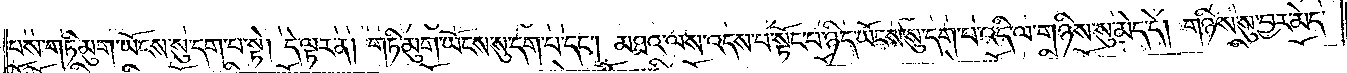པས་གཏི་མུག་ཡོངས་སུ་དག་པ་སྟེ། དེ་ལྟར་ན། གཏི་མུག་ཡོངས་སུ་དག་པ་དང་མཐའ་ལས་འདས་པ་སྟོང་པ་ཉིད་ཡོངས་སུ་དག་པ་འདི་ལ་གཉིས་སུ་མེད་དེ། གཉིས་སུ་བྱར་མེད་
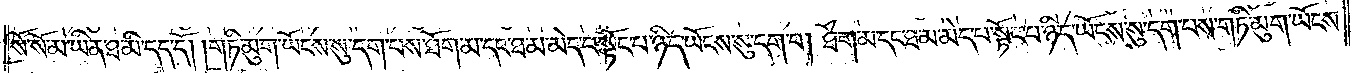སོ་སོ་མ་ཡིན་ཐ་མི་དད་དོ། །གཏི་མུག་ཡོངས་སུ་དག་པས་ཐོག་མ་དང་ཐ་མ་མེད་པ་སྟོང་པ་ཉིད་ཡོངས་སུ་དག་པ། ཐོག་མ་དང་ཐ་མ་མེད་པ་སྟོང་པ་ཉིད་ཡོངས་སུ་དག་པས་གཏི་མུག་ཡོངས་
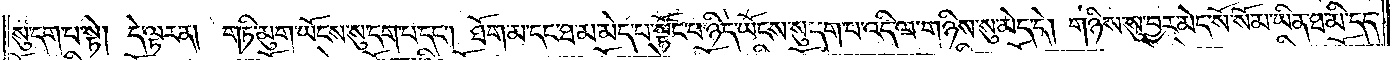སུ་དག་པ་སྟེ། དེ་ལྟར་ན། གཏི་མུག་ཡོངས་སུ་དག་པ་དང༌། ཐོག་མ་དང་ཐ་མ་མེད་པ་སྟོང་པ་ཉིད་ཡོངས་སུ་དག་པ་འདི་ལ་གཉིས་སུ་མེད་དེ། གཉིས་སུ་བྱར་མེད་སོ་སོ་མ་ཡིན་ཐ་མི་དད་
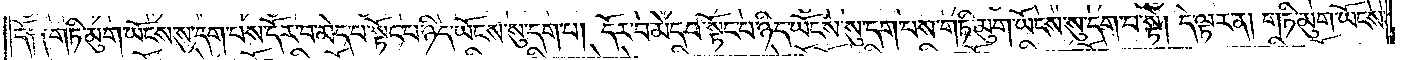དོ༑ ༑གཏི་མུག་ཡོངས་སུ་དག་པས་དོར་བ་མེད་པ་སྟོང་པ་ཉིད་ཡོངས་སུ་དག་པ། དོར་བ་མེད་པ་སྟོང་པ་ཉིད་ཡོངས་སུ་དག་པས་གཏི་མུག་ཡོངས་སུ་དག་པ་སྟེ། དེ་ལྟར་ན། གཏི་མུག་ཡོངས་
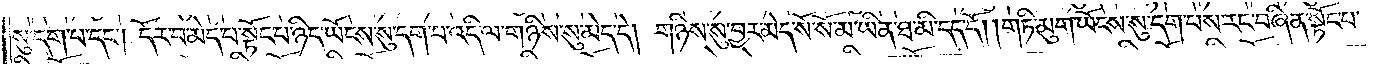སུ་དག་པ་དང༌། དོར་བ་མེད་པ་སྟོང་པ་ཉིད་ཡོངས་སུ་དག་པས་འདི་ལ་གཉིས་སུ་མེད་དེ། གཉིས་སུ་བྱར་མེད་སོ་སོ་མ་ཡིན་ཐ་མི་དད་དོ། །གཏི་མུག་ཡོངས་སུ་དག་པས་རང་བཞིན་སྟོང་པ་
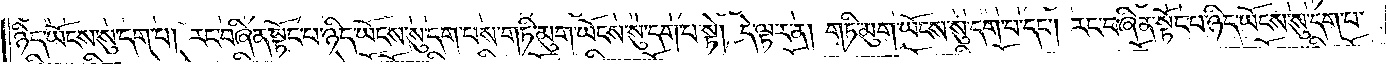ཉིད་ཡོངས་སུ་དག་པ། རང་བཞིན་སྟོང་པ་ཉིད་ཡོངས་སུ་དག་པས་གཏི་མུག་ཡོངས་སུ་དག་པ་སྟེ། དེ་ལྟར་ན། གཏི་མུག་ཡོངས་སུ་དག་པ་དང༌། རང་བཞིན་སྟོང་པ་ཉིད་ཡོངས་སུ་དག་པ་
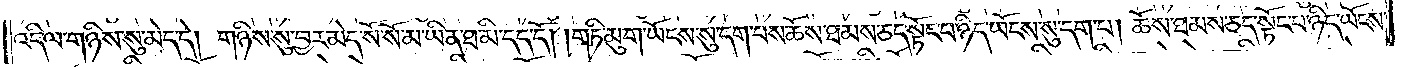འདི་ལ་གཉིས་སུ་མེད་དེ། གཉིས་སུ་བྱར་མེད་སོ་སོ་མ་ཡིན་ཐ་མི་དད་དོ། །གཏི་མུག་ཡོངས་སུ་དག་པས་ཆོས་ཐམས་ཅད་སྟོང་པ་ཉིད་ཡོངས་སུ་དག་པ། ཆོས་ཐམས་ཅད་སྟོང་པ་ཉིད་ཡོངས་
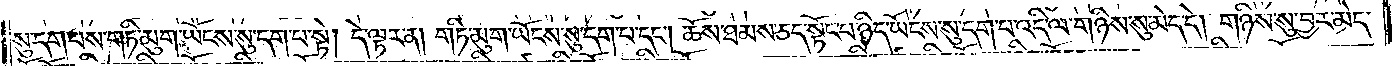སུ་དག་པས་གཏི་མུག་ཡོངས་སུ་དག་པ་སྟེ། དེ་ལྟར་ན། གཏི་མུག་ཡོངས་སུ་དག་པ་དང༌། ཆོས་ཐམས་ཅད་སྟོང་པ་ཉིད་ཡོངས་སུ་དག་པ་འདི་ལ་གཉིས་སུ་མེད་དེ། གཉིས་སུ་བྱར་མེད་
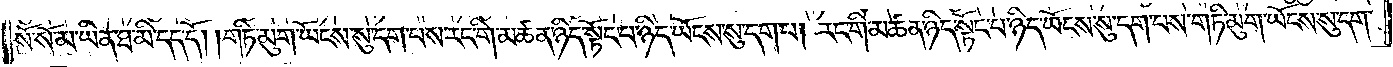སོ་སོ་མ་ཡིན་ཐ་མི་དད་དོ། །གཏི་མུག་ཡོངས་སུ་དག་པས་རང་གི་མཚན་ཉིད་སྟོང་པ་ཉིད་ཡོངས་སུ་དག་པ། རང་གི་མཚན་ཉིད་སྟོང་པ་ཉིད་ཡོངས་སུ་དག་པས་གཏི་མུག་ཡོངས་སུ་དག་
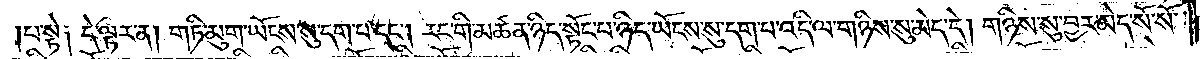པ་སྟེ༑ དེ་ལྟར་ན། གཏི་མུག་ཡོངས་སུ་དག་པ་དང༌། རང་གི་མཚན་ཉིད་སྟོང་པ་ཉིད་ཡོངས་སུ་དག་པ་འདི་ལ་གཉིས་སུ་མེད་དེ། གཉིས་སུ་བྱར་མེད་སོ་སོ་
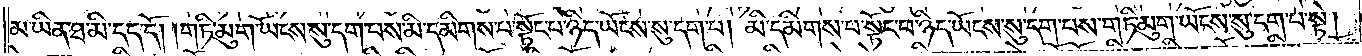མ་ཡིན་ཐ་མི་དད་དོ། །གཏི་མུག་ཡོངས་སུ་དག་པས་མི་དམིགས་པ་སྟོང་པ་ཉིད་ཡོངས་སུ་དག་པ། མི་དམིགས་པ་སྟོང་པ་ཉིད་ཡོངས་སུ་དག་པས་གཏི་མུག་ཡོངས་སུ་དག་པ་སྟེ།
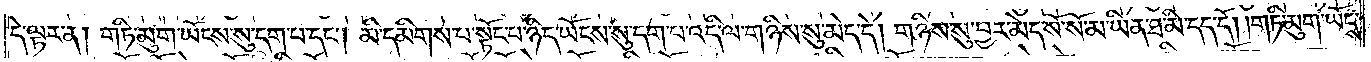དེ་ལྟར་ན། གཏི་མུག་ཡོངས་སུ་དག་པ་དང༌། མི་དམིགས་པ་སྟོང་པ་ཉིད་ཡོངས་སུ་དག་པ་འདི་ལ་གཉིས་སུ་མེད་དེ། གཉིས་སུ་བྱར་མེད་སོ་སོ་མ་ཡིན་ཐ་མི་དད་དོ། །གཏི་མུག་ཡོངས་
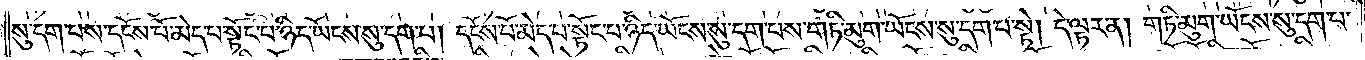སུ་དག་པས་དངོས་པོ་མེད་པ་སྟོང་པ་ཉིད་ཡོངས་སུ་དག་པ། དངོས་པོ་མེད་པ་སྟོང་པ་ཉིད་ཡོངས་སུ་དག་པས་གཏི་མུག་ཡོངས་སུ་དག་པ་སྟེ། དེ་ལྟར་ན། གཏི་མུག་ཡོངས་སུ་དག་པ་
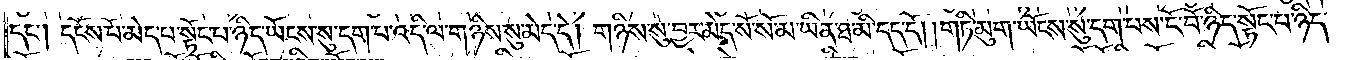དང༌། དངོས་པོ་མེད་པ་སྟོང་པ་ཉིད་ཡོངས་སུ་དག་པ་འདི་ལ་གཉིས་སུ་མེད་དེ། གཉིས་སུ་བྱར་མེད་སོ་སོ་མ་ཡིན་ཐ་མི་དད་དོ། །གཏི་མུག་ཡོངས་སུ་དག་པས་ངོ་བོ་ཉིད་སྟོང་པ་ཉིད་
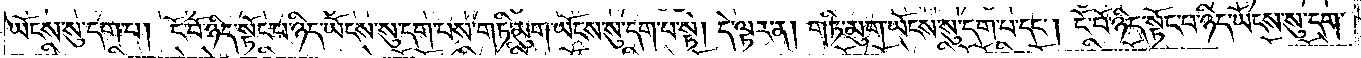ཡོངས་སུ་དག་པ། ངོ་བོ་ཉིད་སྟོང་པ་ཉིད་ཡོངས་སུ་དག་པས་གཏི་མུག་ཡོངས་སུ་དག་པ་སྟེ། དེ་ལྟར་ན། གཏི་མུག་ཡོངས་སུ་དག་པ་དང༌། ངོ་བོ་ཉིད་སྟོང་པ་ཉིད་ཡོངས་སུ་དག་
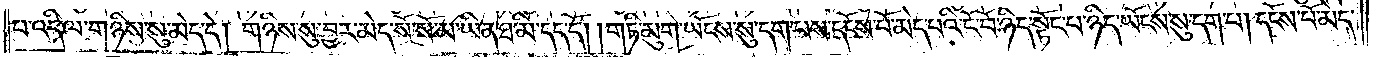པ་འདི་ལ་གཉིས་སུ་མེད་དེ། གཉིས་སུ་བྱར་མེད་སོ་སོ་མ་ཡིན་ཐ་མི་དད་དོ། །གཏི་མུག་ཡོངས་སུ་དག་པས་དངོས་པོ་མེད་པའི་ངོ་བོ་ཉིད་སྟོང་པ་ཉིད་ཡོངས་སུ་དག་པ་དང༌། དངོས་པོ་མེད་
